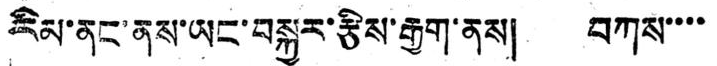རིམ་ནང་ནས་ཡང་བསྐྱར་རྩིས་རྒྱག་ནས། བཀས་་་་
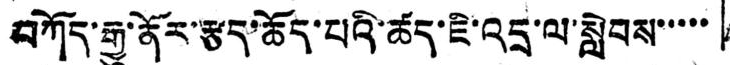བཀོད་རྒྱུ་ནོར་རྩད་ཆོད་པའི་ཚད་ཇི་འདྲ་ལ་སླེབས་་་་
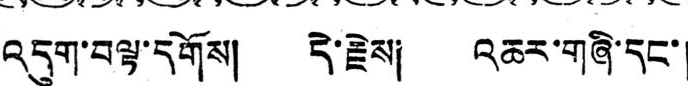འདུག་བལྟ་དགོས། དེ་རྗེས། འཆར་གཞི་དང་།
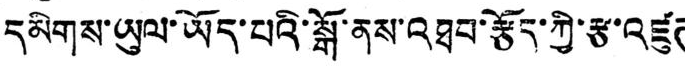དམིགས་ཡུལ་ཡོད་པའི་སྒོ་ནས་འཐབ་རྩོད་ཀྱི་རྩ་འཛུཊ
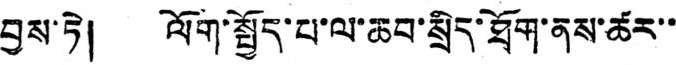བྱས་ཏེ། ལོག་སྤྱོད་པ་ལ་ཆབ་སྲིད་ཐོག་ནས་ཚར་་་
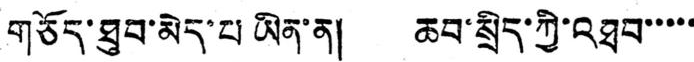གཅོད་ཐུབ་མེད་པ ཡིན་ན། ཆབ་སྲིད་ཀྱི་འཐབ་་་་་
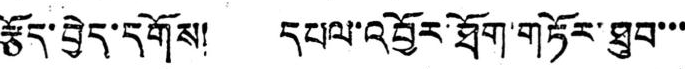རྩོད་བྱེད་དགོས། དཔལ་བྱོར་ཐོག་གཏོར་ཐུབ་་་
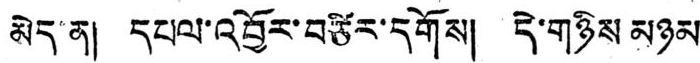མེད་ན། དཔལ་འབྱོར་བཙིར་དགོས། དེ་གཉིས མཉམ
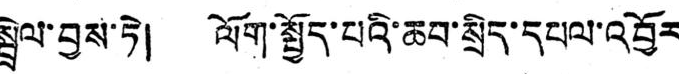སྦྲེལ་བྱས་ཏེ། ལོག་སྤྱོད་པའི་ཆབ་སྲིད་དཔལ་འབྱོར
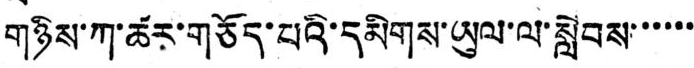གཉིས་ཀ་ཚར་གཅོད་པའི་དམིགས་ཡུལ་ལ་སླེབས་་་་་་
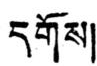དགོས།
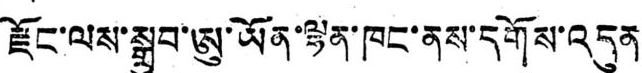རྫོང་ལས་སྒྲུབ་ཨུ་ཡོན་ལྷན་ཁང་ནས་དགོས་འདུན
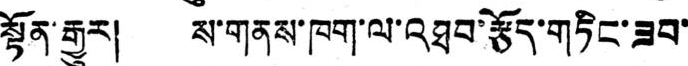སྟོན་རྒྱུར། ས་གནས་ཁག་ལ་འཐབ་རྩོད་གཏིང་ཟབ་
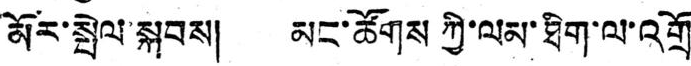མོར་སྤེ་སྐབས། མང་ཚོགས ཀྱི་ལམ་ཐིག་ལ་འགྲོ
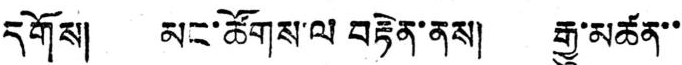དགོས། མང་ཚོགས་ལ བརྟེན་ནས། རྒྱུ་མཚན་་་
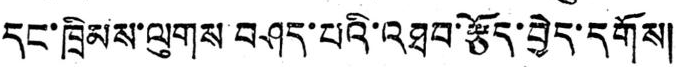དང་ཁྲིམས་ལུགས་བཤད་པའི འཐབ་རྩོད་བྱེད་དགོས།
